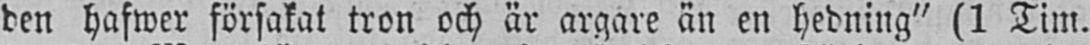den hafwer försakat tron och är argare än en hedning" (1 Tim.
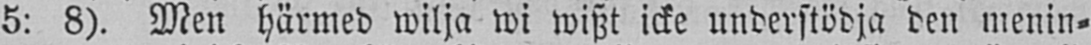5: 8). Men härmed wilja wi wiszt icke understödja den menin-
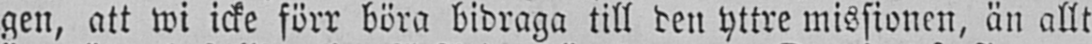gen, att wi icke förr böra bidraga till den yttre missionen, än allt
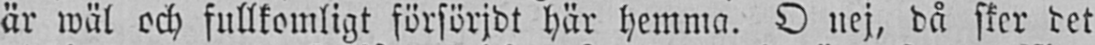är wäl och fullkomligt försörjdt här hemma. O nej, då sker det
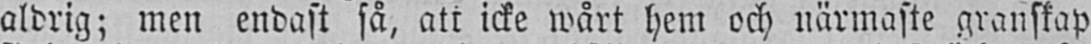aldrig; men endast så, att icke wårt hem och närmaste granskap
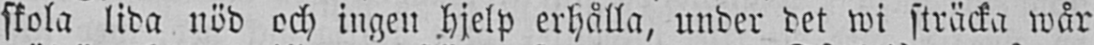skola lida nöd och ingen hjelp erhålla, under det wi sträcka wår
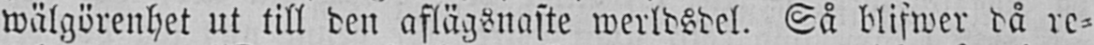wälgörenhet ut till den aflägsnaste werldsdel. Så blifwer då re-
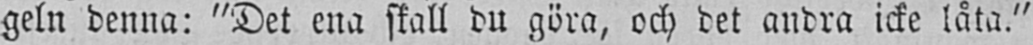geln denna: "Det ena skall du göra, och det andra icke låta."
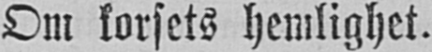Om korsets hemlighet.
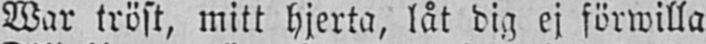War tröst, mitt hjerta, låt dig ej förwilla
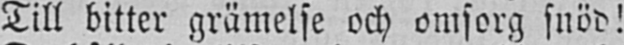Till bitter grämelse och omsorg snöd!
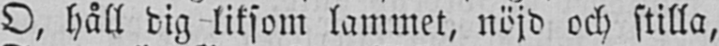O, håll dig liksom lammet, nöjd och stilla,
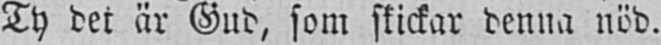Ty det är Gud, som skickar denna nöd.
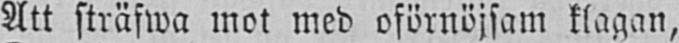Att sträfwa mot med oförnöjsam klagan,
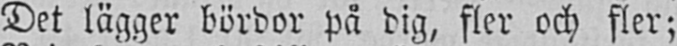Det lägger bördor på dig, fler och fler;
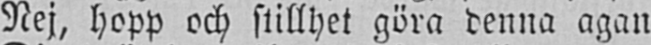Nej, hopp och stillhet göra denna agan
